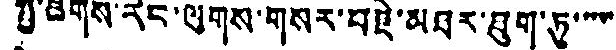ཀྱི་ཚོགས་རིང་ལུགས་གསར་བརྗེ་མཐར་ཐུག་ཏུ་་་་་་་
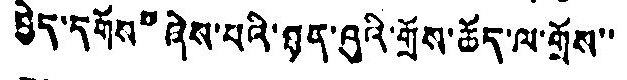བྱེད་དགོས”ཞེས་པའི་སྙན་ཞུའི་གྲོས་ཆོད་ལ་གྲོས་་
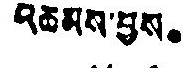འཆམས་བྱས。
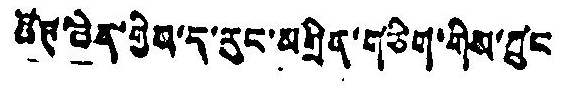ཚུཊ་ཆེན་གྱིས་ད་རུང་མགྲིན་གཅིག་གིས་ཀྲུང་
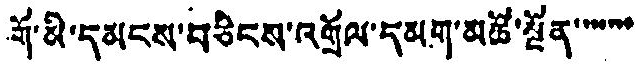གོ་མི་དམངས་བཅིངས་འགྲོལ་དམག་མཚོ་སྔོན་་་་་་་
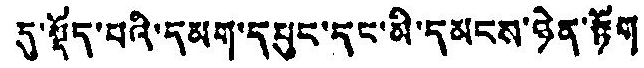དུ་སྡོད་པའི་དམག་དཔུང་དང་མི་དམངས་ཉེན་རྟོག
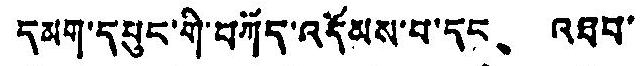དམག་དཔུང་གི་བཀོད་འདོམས་པ་དང、 འཐབ་
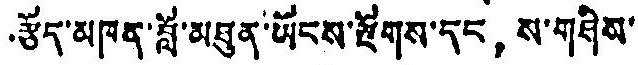རྩོད་མཁན་བློ་མཐུན་ཡོངས་རྫོགས་དང， ས་གཤིས་
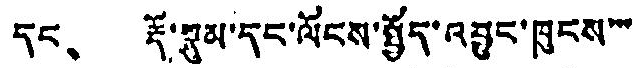དང、 རྡོ་སྣུམ་དང་ལོངས་སྤྱོད་འབྱུང་ཁུངས་་་
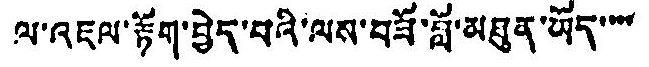ལ་འཇལ་རྟོག་བྱེད་པའི་ལས་བཟོ་བློ་མཐུན་ཡོད་་་་
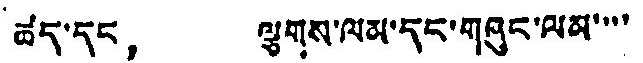ཚད་དང， ལྕགས་ལམ་དང་གཞུང་ལམ་་་་
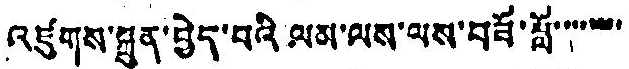འཛུགས་སྐྲུན་བྱེད་པའི ལམ་ལས་ལས་བཟོ་བློ་་་་་་་་
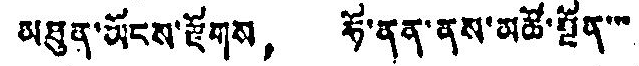མཐུན་ཡོངས་རྫོགས， ཧོ་ནན་ནས་མཚོ་སྔོན་་་་
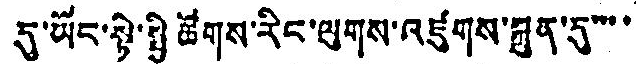དུ་ཡོང་སྟེ་སྤྱི ཚོགས་རིང་ལུགས་འཛུགས་སྐྲུན་དུ་་་་་་
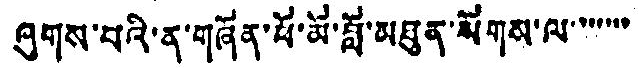ཞུགས་པའི་ན་གཞོན་ཕོ་མོ་བློ་མཐུན་སོགས་ལ་་་་་་་
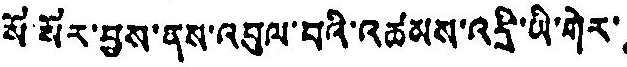སོ་སོར་བྱས་ནས་འབུལ་བའི་འཚམས་འདྲི་ཡི་གེར་་
